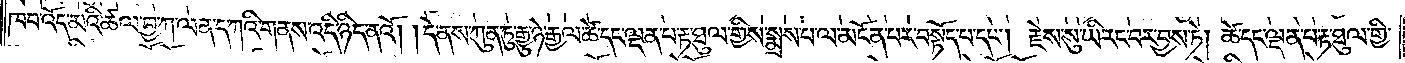ཁབ་འོད་མའི་ཚལ་བྱ་ཀ་ལན་ད་ཀའི་གནས་འདི་ཉིད་ནའོ། །དེ་ནས་ཀུན་ཏུ་རྒྱུ་ཉེ་རྒྱལ་ཚེ་དང་ལྡན་པ་རྟ་ཐུལ་གྱིས་སྨྲས་པ་ལ་མངོན་པར་བསྟོད་པ་དང༌། རྗེས་སུ་ཡི་རང་བར་བྱས་ཏེ། ཚེ་དང་ལྡན་པ་རྟ་ཐུལ་གྱི་
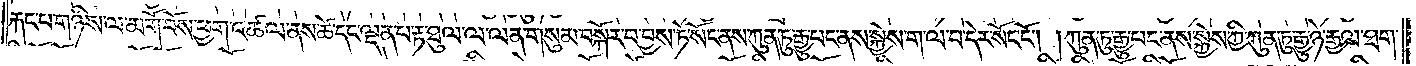རྐང་པ་གཉིས་ལ་མགོ་བོས་ཕྱག་འཚལ་ནས་ཚེ་དང་ལྡན་པ་རྟ་ཐུལ་ལ་ལན་གསུམ་བསྐོར་བ་བྱས་ཏེ་སོང་ནས་ཀུན་ཏུ་རྒྱུ་པང་ནས་སྐྱེས་ག་ལ་བ་དེར་སོང་ངོ༌། །ཀུན་ཏུ་རྒྱུ་པང་ནས་སྐྱེས་ཀྱི་ཀུན་ཏུ་རྒྱུ་ཉེ་རྒྱལ་ཐག་
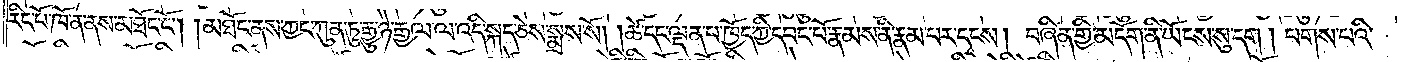རིང་པོ་ཁོ་ན་ནས་མཐོང་ངོ༌། །མཐོང་ནས་ཀྱང་ཀུན་ཏུ་རྒྱུ་ཉེ་རྒྱལ་ལ་འདི་སྐད་ཅེས་སྨྲས་སོ། །ཚེ་དང་ལྡན་པ་ཁྱོད་ཀྱི་དབང་པོ་རྣམས་ནི་རྣམ་པར་དྭངས། བཞིན་གྱི་མདོག་ནི་ཡོངས་སུ་དག། པགས་པའི་
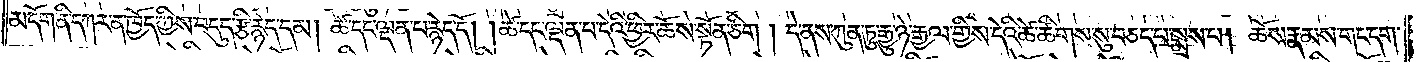མདོག་ནི་དཀར་ན་ཁྱོད་ཀྱིས་བདུད་རྩི་རྙེད་དམ། ཚེ་དང་ལྡན་པ་རྙེད་དོ། །ཚེ་དང་ལྡན་པ་དེའི་ཕྱིར་ཆོས་སྟོན་ཅིག། དེ་ནས་ཀུན་ཏུ་རྒྱུ་ཉེ་རྒྱལ་གྱིས་དེའི་ཚེ་ཚིགས་སུ་བཅད་པ་སྨྲས་པ། ཆོས་རྣམས་གང་དག་
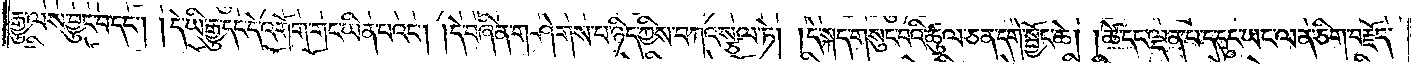རྒྱུ་ལས་བྱུང་བ་དང༌། དེ་ཡི་རྒྱུ་དང་དེ་འགོག་གང་ཡིན་པའང༌། །དེ་བཞིན་གཤེགས་པ་ཉིད་ཀྱིས་བཀའ་སྩལ་ཏེ། །དེ་སྐད་གསུང་བའི་ཚུལ་ཅན་དགེ་སྦྱོང་ཆེ། །ཚེ་དང་ལྡན་པ་ད་དུང་ཡང་ལན་ཅིག་བརྗོད་
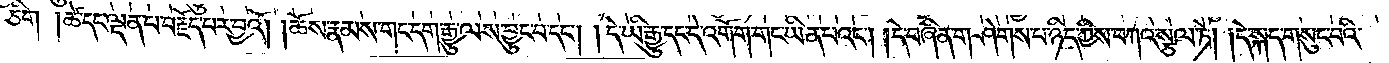ཅིག །ཚེ་དང་ལྡན་པ་བརྗོད་པར་བྱའོ། །ཆོས་རྣམས་གང་དག་རྒྱུ་ལས་བྱུང་བ་དང༌། །དེ་ཡི་རྒྱུ་དང་དེ་འགོག་གང་ཡིན་པའང༌། །དེ་བཞིན་གཤེགས་པ་ཉིད་ཀྱིས་བཀའ་སྩལ་ཏེ། །དེ་སྐད་གསུང་བའི་
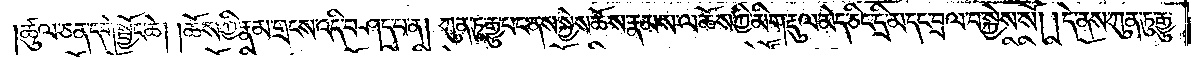ཚུལ་ཅན་དགེ་སྦྱོང་ཆེ། །ཆོས་ཀྱི་རྣམ་གྲངས་འདི་བཤད་པ་ན། ཀུན་ཏུ་རྒྱུ་པང་ནས་སྐྱེས་ཆོས་རྣམས་ལ་ཆོས་ཀྱི་མིག་རྡུལ་མེད་ཅིང་དྲི་མ་དང་བྲལ་བ་སྐྱེས་སོ། །དེ་ནས་ཀུན་ཏུ་རྒྱུ་
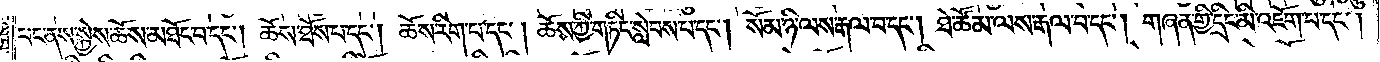པང་ནས་སྐྱེས་ཆོས་མཐོང་བ་དང༌། ཆོས་ཐོས་པ་དང༌། ཆོས་རིག་པ་དང༌། ཆོས་ཀྱི་གཏིང་སླེབས་པ་དང༌། སོམ་ཉི་ལས་རྒལ་བ་དང༌། ཐེ་ཚོམ་ལས་རྒལ་བ་དང༌། གཞན་གྱི་དྲིང་མི་འཇོག་པ་དང༌།
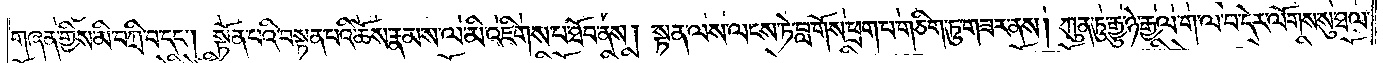གཞན་གྱིས་མི་བཀྲི་བ་དང༌། སྟོན་པའི་བསྟན་པའི་ཆོས་རྣམས་ལ་མི་འཇིགས་པ་ཐོབ་ནས། སྟན་ལས་ལངས་ཏེ་བླ་གོས་ཕྲག་པ་གཅིག་ཏུ་གཟར་ནས། ཀུན་ཏུ་རྒྱུ་ཉེ་རྒྱལ་ག་ལ་བ་དེར་ལོགས་སུ་ཐལ་
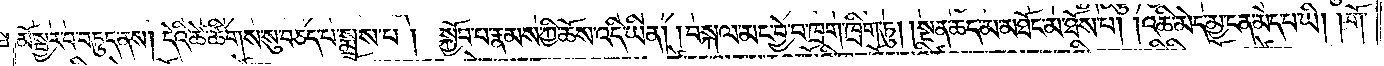མོ་སྦྱར་བ་བཏུད་ནས། དེའི་ཚེ་ཚིགས་སུ་བཅད་པ་སྨྲས་པ། སྐྱོབ་པ་རྣམས་ཀྱི་ཆོས་འདི་ཡིན། །བསྐལ་མང་བྱེ་བ་ཁྲག་ཁྲིག་ཏུ། །སྔན་ཆད་མ་མཐོང་མ་ཐོས་པ། །འཆི་མེད་མྱ་ངན་མེད་པ་ཡི། །གོ་
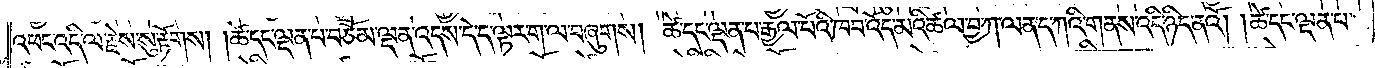འཕང་འདི་ལ་རྗེས་སུ་རྟོགས། །ཚེ་དང་ལྡན་པ་བཅོམ་ལྡན་འདས་དེ་ད་ལྟར་ག་ལ་བཞུགས། ཚེ་དང་ལྡན་པ་རྒྱལ་པོའི་ཁབ་འོད་མའི་ཚལ་བྱ་ཀ་ལན་ད་ཀའི་གནས་འདི་ཉིད་ནའོ། །ཚེ་དང་ལྡན་པ་
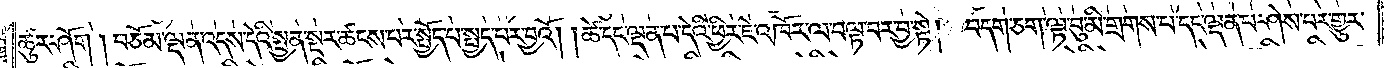ཚུར་ཤོག། བཅོམ་ལྡན་འདས་དེའི་སྤྱན་སྔར་ཚངས་པར་སྤྱོད་པ་སྤྱད་པར་བྱའོ། །ཚེ་དང་ལྡན་པ་དེའི་ཕྱིར་ཇེ་འཁོར་ལ་བལྟ་བར་བྱ་སྟེ། བདག་ཅག་ལྟ་བུ་མི་གྲགས་པ་དང་ལྡན་པ་ཤེས་པར་གྱུར་
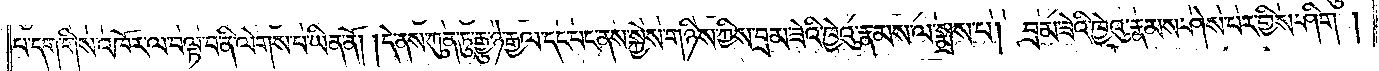པ་དག་གིས་འཁོར་ལ་བལྟ་བ་ནི་ལེགས་པ་ཡིན་ནོ། །དེ་ནས་ཀུན་ཏུ་རྒྱུ་ཉེ་རྒྱལ་དང་པང་ནས་སྐྱེས་གཉིས་ཀྱིས་བྲམ་ཟེའི་ཁྱེའུ་རྣམས་ལ་སྨྲས་པ། བྲམ་ཟེའི་ཁྱེའུ་རྣམས་ཤེས་པར་གྱིས་ཤིག།
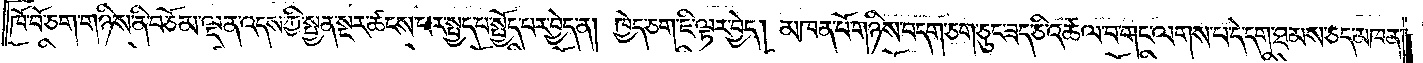ཁོ་བོ་ཅག་གཉིས་ནི་བཅོམ་ལྡན་འདས་ཀྱི་སྤྱན་སྔར་ཚངས་པར་སྤྱད་པ་སྤྱོད་པར་བྱེད་ན། ཁྱེད་ཅག་ཇི་ལྟར་བྱེད། མཁན་པོ་གཉིས་བདག་ཅག་ཅུང་ཟད་ཅི་འཚལ་བ་གང་ལགས་པ་དེ་དག་ཐམས་ཅད་མཁན་
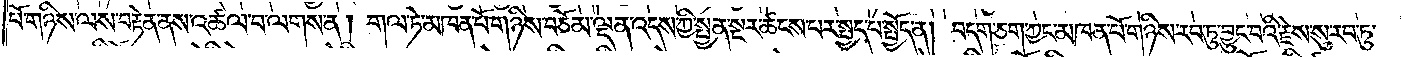པོ་གཉིས་ལས་བརྟེན་ནས་འཚལ་བ་ལགས་ན། གལ་ཏེ་མཁན་པོ་གཉིས་བཅོམ་ལྡན་འདས་ཀྱི་སྤྱན་སྔར་ཚངས་པར་སྤྱད་པ་སྤྱོད་ན། བདག་ཅག་ཀྱང་མཁན་པོ་གཉིས་རབ་ཏུ་བྱུང་བའི་རྗེས་སུ་རབ་ཏུ་
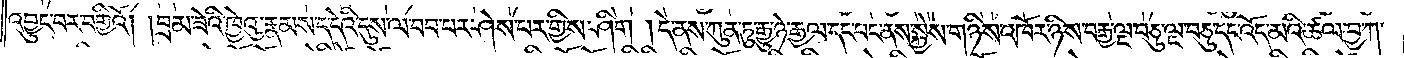འབྱུང་བར་བགྱིའོ། །བྲམ་ཟེའི་ཁྱེའུ་རྣམས་ད་དེའི་དུས་ལ་བབ་པར་ཤེས་པར་གྱིས་ཤིག །དེ་ནས་ཀུན་ཏུ་རྒྱུ་ཉེ་རྒྱལ་དང་པང་ནས་སྐྱེས་གཉིས་འཁོར་ཉིས་བརྒྱ་ལྔ་བཅུ་ལྔ་བཅུ་དང་འོད་མའི་ཚལ་བྱ་ཀ་
